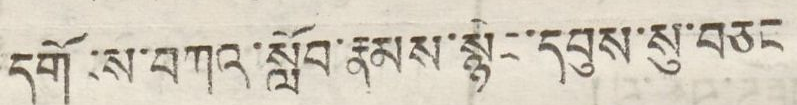དགོངས་བཀའ་སློབ་རྣམས་སྙིང་དབུས་སུ་བཅང
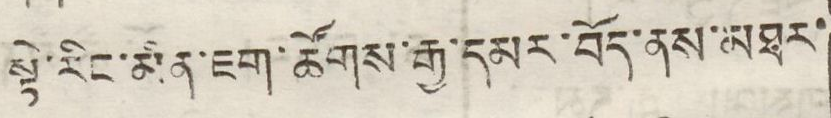སྟེ་རིང་མིན་ཇག་ཚོགས་རྒྱ་དམར་བོད་ནས་མཐར་
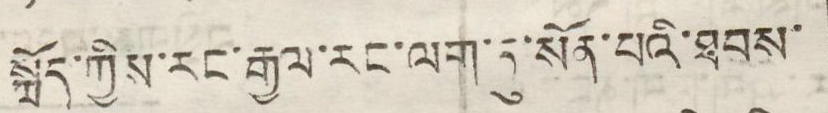སྐྲོད་ཀྱིས་རང་རྒྱལ་རང་ལག་ཏུ་སོན་པའི་ཐབས་
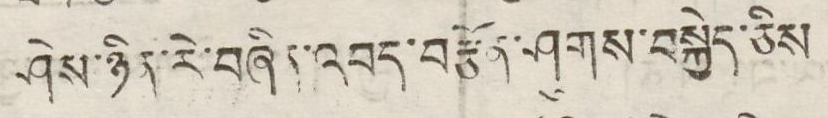ཤེས་ཉིན་རེ་བཞིན་འབད་བརྩོན་ཤུགས་བསྐྱེད་ཅིས
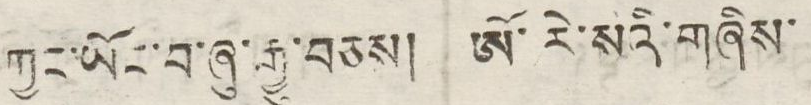ཀྱང་ཡོང་བ་ཞུ་རྒྱུ་བཅས། ཨོ་རེ་སའི་གཞིས་
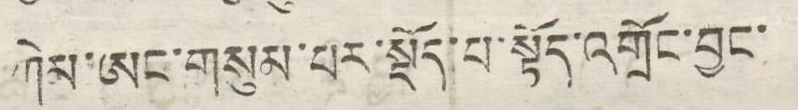ཀེམ་ཨང་གསུམ་པར་སྡོད་པ་སྟོད་འགྲོང་བྱང་
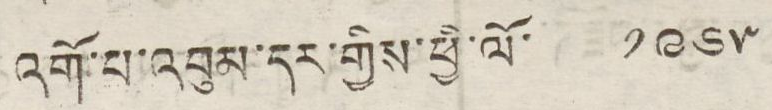འགོ་པ་འབུམ་དར་གྱིས་ཕྱི་ལོ ༡༩༦༥
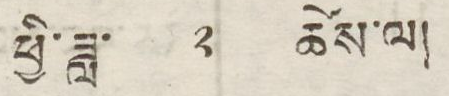ཕྱི་ཟླ་ ༢ ཚེས་ལ།
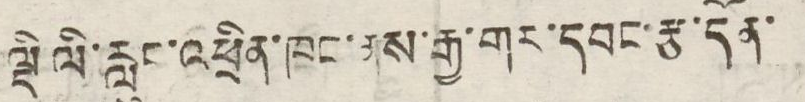ལྡི ལི་རླུང་འཕྲིན་ཁང་ནས་རྒྱ་གར་དབང་རྩ་དོན་
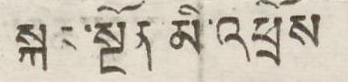སྐོར་སྔོན་མི་འཕྲོས
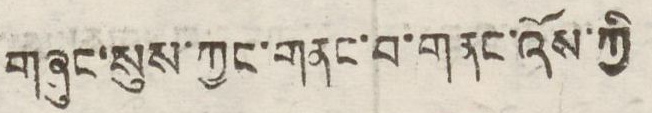གཞུང་སུས་ཀྱང་གནང་བ་གནང་འོས་ཀྱི
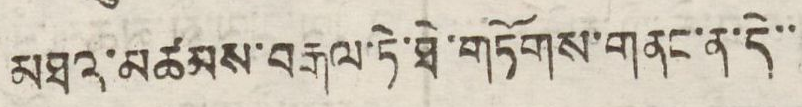མཐའ་མཚམས་བརྒལ་ཏེ་ཐེ་གཏོགས་གནང་ན་དེ་་
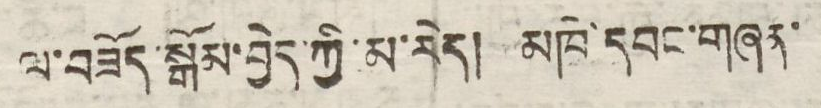ལ་བཟོད་སྒོམ་བྱེད་ཀྱི་མ་རེད། མཁེ་དབང་གཞན་
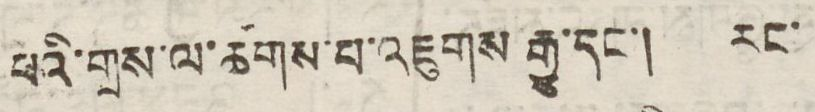པའི་གྲས་ལ་ཚགས་པ་འཇུགས རྒྱུ་དང་། རང་
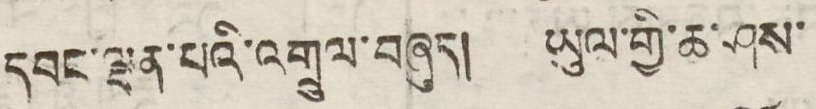དབང་ལྡན་པའི་འགྲུལ་བཞུད། ཡུལ་གྱི་ཆ་ཤས་
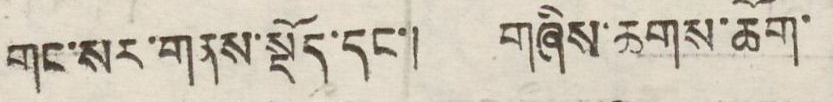གང་སར་གནས་སྡོད་དང་། གཞིས་ཆགས་ཆོག་
